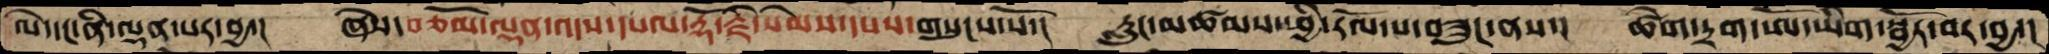ལེ་དང་ནི་ལྡན་པར་བྱ་།   ཞེས་བཅོམ་ལྡན་འདས་དཔལ་རྡོ་རྗེ་སེམས་དཔས་གསུངས་སོ་།  རླུང་མཚམས་ཕྱི་རོལ་པ་བཟུང་ནས་།  ཚེག་དྲག་ཨོ་ཡིག་སྦྱོར་བར་བྱ་།
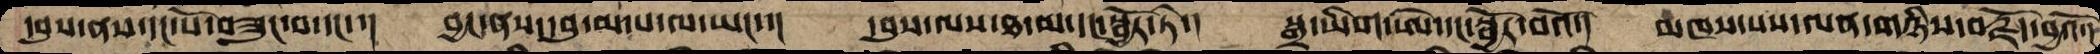དབུས་ནས་དང་པོ་བཟུང་བ་དང་་།  བྱང་ནས་དབུ་མ་པ་ལ་ཡང་་།  དབུས་ལས་ཐ་མ་དང་སྦྱོར་ཏེ་།  སྒྲ་ཡིག་ཨེ་དང་སྦྱོར་བའོ།  མཁས་པས་ལན་གཉིས་བརྗོད་བྱའོ་།
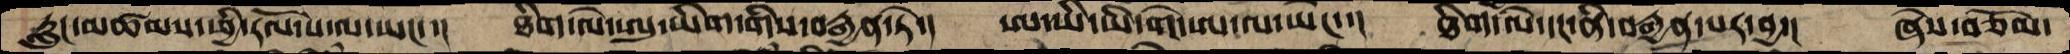རླུང་མཚམས་ཕྱི་རོལ་པ་ལ་ཡང་་།  ཐིག་ལེ་ཨུ་ཡིག་གིས་བརྒྱན་ཏེ་།  ཨ་ཡི་ཡི་གེ་ཨ་ལ་ཡང་་།  ཐིག་ལེ་དང་ནི་བརྒྱན་པར་བྱ་།  ཞེས་བཅོམ་
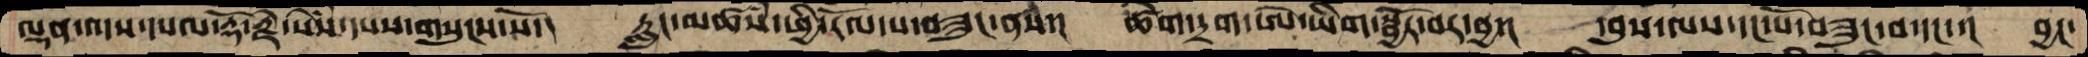ལྡན་འདས་དཔལ་རྡོ་རྗེ་སེཾས་དཔས་གསུངས་སོ་།  རླུང་མཚཾས་ཕྱི་རོལ་པ་བཟུང་ནས་།  ཚེག་དྲག་ཨེ་ཡིག་སྦྱོར་བར་བྱ་།  དབུས་ལས་དང་པོ་བཟུང་བ་དང་།  བྱང་
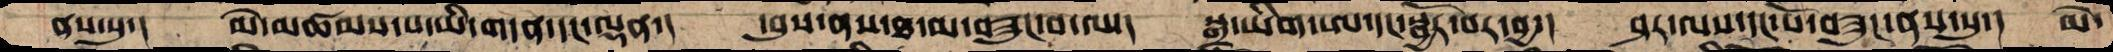ནས་སུ་།  མེ་མཚམས་པ་ཡི་གདན་དང་ལྡན་།  དབུས་ནས་ཐ་མ་བཟུང་བ་ལ་།  སྒྲ་ཡིག་ཨ་དང་སྦྱོར་བར་བྱ་།  ཤར་ལས་དང་པོ་བཟུང་ནས་སུ་།  མེ་
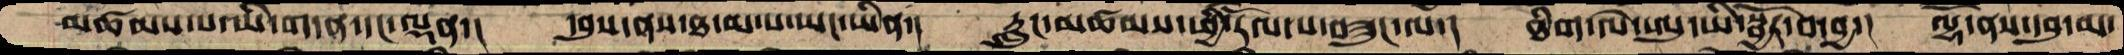མཚམས་པ་ཡི་གདན་དང་ལྡན་།  དབུས་ནས་ཐ་མ་པ་ཡང་ཡིན་།  རླུང་མཚམས་ཕྱི་རོལ་པ་བཟུང་ལ་།  ཐིག་ལེ་ཨུ་ཡི་སྦྱོར་བ་བྱ་།  ལྷོ་ནས་དབུ་མ་
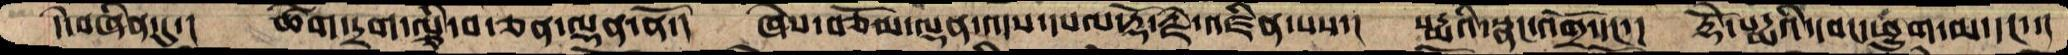དེ་བཞིན་དུ་།  ཚེག་དྲག་ལྕི་བ་ཅན་ལྡན་ནོ་།  ཞེས་བཅོམ་ལྡན་འདས་དཔལ་རྡོ་རྗེ་འཛིན་པས་།  པདྨའི་སྣང་འགྲོས་དང་།  རྡོེ་པདྨའི་དབང་ཕྱུག་མ་དང་་།
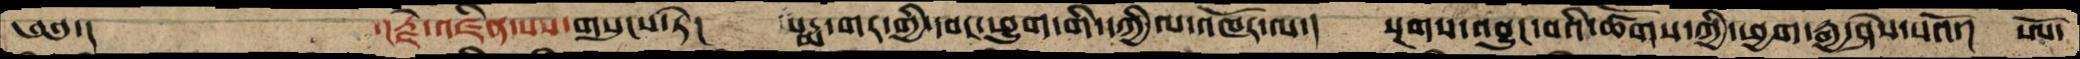༄༅་།    ་།རྗེ་འཛིན་པས་གསུངས་ཏེ་།  པདྨ་གར་གྱི་དབང་ཕྱུག་གི་འཀྱིལ་འཁོར་ལ་།  སྔགས་འབྱུང་བའི་ཚོགས་ཀྱི་ཕྱག་རྒྱ་ཤེས་པའོ་།  ཨོ་
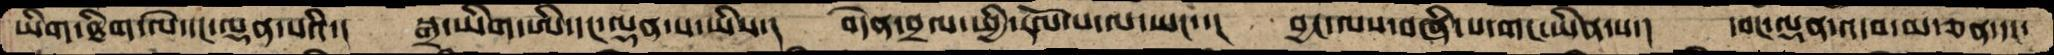ཡིག་ཐིག་ལེ་དང་ལྡན་པའི་།  སྒྲ་ཡིག་ཨི་དང་ལྡན་པ་ཡིས་།  བདེན་བྲལ་ཕྱི་རོལ་པ་ལ་ཡང་་།  བྱང་ལས་བཞི་པ་གང་ཡིན་པ་།  དབང་ལྡན་འདབ་མ་ཅན་དང་
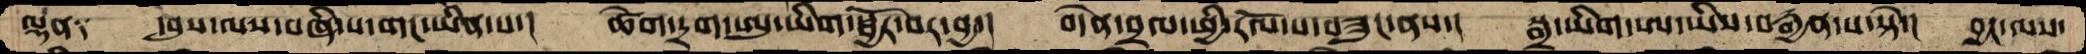ལྡན༑  དབུས་ལས་བཞི་པ་གང་ཡིན་པ་།  ཚེག་དྲག་ཨུ་ཡིག་སྦྱོར་བར་བྱ་།  བདེན་བྲལ་ཕྱི་རོལ་པ་བཟུང་ནས་།  སྒྲ་ཡིག་ཨ་ཡིས་བརྒྱན་པ་སྟེ་།  བྱང་ལས་
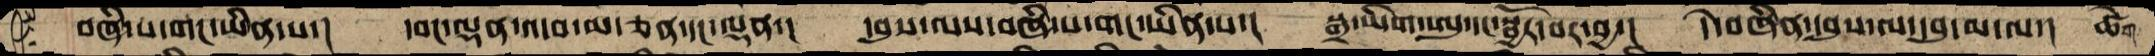བཞི་པ་གང་ཡིན་པ་།  དབང་ལྡན་འདབ་མ་ཅན་དང་ལྡན་། དབུས་ལས་བཞི་པ་གང་ཡིན་པ་། སྒྲ་ཡིག་ཨུ་དང་སྦྱོར་བར་བྱ་། དེ་བཞིན་དབུས་ལ་དབུ་མ་ལ་། ཚེག་
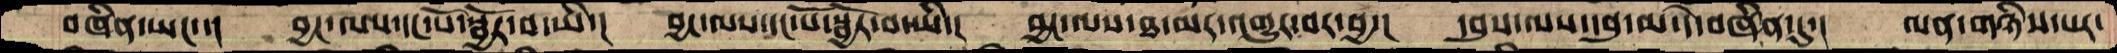བཞིན་ཡང་་།  བྱང་ལས་དང་པོ་སྦྱོར་བ་ཡི་།  བྱང་ལས་དང་པོ་སྦྱོར་བ་ཡི་།  བྱང་ལས་ཐ་མར་འགྱུར་བར་བྱ་།  དབུས་ལས་དབུ་མ་དེ་བཞིན་དུ་།  ལན་གཉིས་པར་
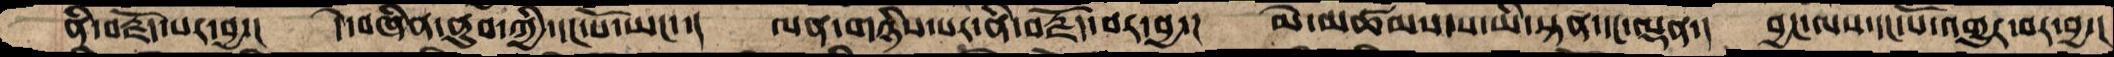ནི་བརྗོད་པར་བྱ་།  དེ་བཞིན་ནུབ་ཀྱི་དང་པོ་ཡང་་།  ལན་གཉིས་པར་ནི་བརྗོད་པར་བྱ་།  མེ་མཚམས་པ་ཡི་སྟན་དང་ལྡན་།  བྱང་ལས་དང་པོ་འགྱུར་བར་བྱ་།
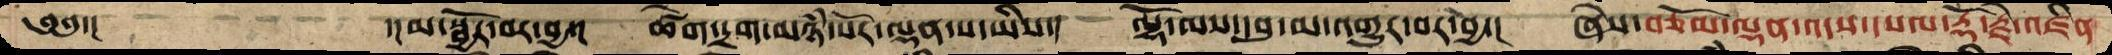༄༅་།     ་།མ་སྦྱོར་བར་བྱ་།  ཚེག་དྲག་མཉཾ་པོར་ལྡན་པ་ཡིས་།  ལྷོ་ལས་དབུ་མ་འགྱུར་བར་བྱ་།  ཞེས་བཅོམ་ལྡན་འདས་དཔལ་རྡོ་རྗེ་འཛིན་
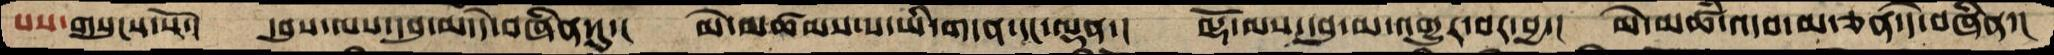པས་གསུངས་སོ་།  དབུས་ལས་དབུ་མ་དེ་བཞིན་དུ་།  མེ་མཚམས་པ་ཡི་གདན་དང་ལྡན་།  ལྷོ་ལས་དབུ་མ་འགྱུར་བར་བྱ་།  མེ་མཚཾ་འདབ་མ་ཅན་དེ་བཞིན་།
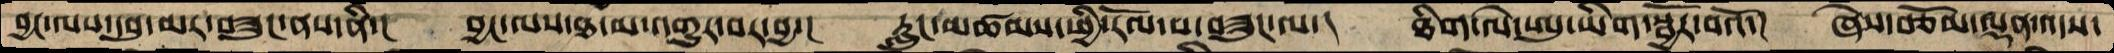བྱང་ལས་དབུ་མར་བཟུང་ནས་ནི་།  བྱང་ལས་ཐ་མ་འགྱུར་བར་བྱ་།  རླུང་མཚམས་ཕྱི་རོལ་པ་བཟུང་ལ་།  ཐིག་ལེ་ཨུ་ཡིག་སྦྱོར་བའོ་།  ཞེས་བཅོམ་ལྡན་འདས་
